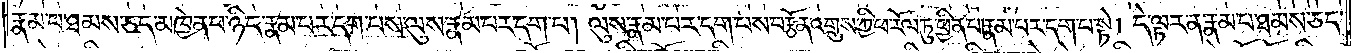རྣམ་པ་ཐམས་ཅད་མཁྱེན་པ་ཉིད་རྣམ་པར་དག་པས་ལུས་རྣམ་པར་དག་པ། ལུས་རྣམ་པར་དག་པས་བརྩོན་འགྲུས་ཀྱི་ཕ་རོལ་ཏུ་ཕྱིན་པ་རྣམ་པར་དག་པ་སྟེ། དེ་ལྟར་ན་རྣམ་པ་ཐམས་ཅད་
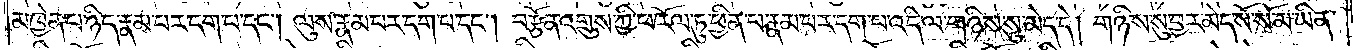མཁྱེན་པ་ཉིད་རྣམ་པར་དག་པ་དང༌། ལུས་རྣམ་པར་དག་པ་དང༌། བརྩོན་འགྲུས་ཀྱི་ཕ་རོལ་ཏུ་ཕྱིན་པ་རྣམ་པར་དག་པ་འདི་ལ་གཉིས་སུ་མེད་དེ། གཉིས་སུ་བྱར་མེད་སོ་སོ་མ་ཡིན་
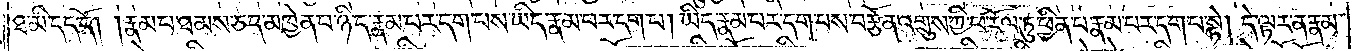ཐ་མི་དད་དོ། །རྣམ་པ་ཐམས་ཅད་མཁྱེན་པ་ཉིད་རྣམ་པར་དག་པས་ཡིད་རྣམ་པར་དག་པ། ཡིད་རྣམ་པར་དག་པས་བརྩོན་འགྲུས་ཀྱི་ཕ་རོལ་ཏུ་ཕྱིན་པ་རྣམ་པར་དག་པ་སྟེ། དེ་ལྟར་ན་རྣམ་
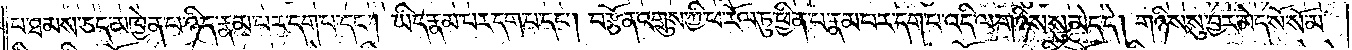པ་ཐམས་ཅད་མཁྱེན་པ་ཉིད་རྣམ་པར་དག་པ་དང༌། ཡིད་རྣམ་པར་དག་པ་དང༌། བརྩོན་འགྲུས་ཀྱི་ཕ་རོལ་ཏུ་ཕྱིན་པ་རྣམ་པར་དག་པ་འདི་ལ་གཉིས་སུ་མེད་དེ། གཉིས་སུ་བྱར་མེད་སོ་སོ་མ་
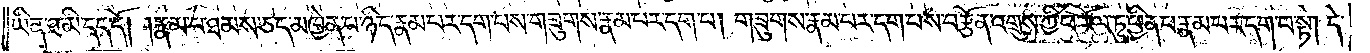ཡིན་ཐ་མི་དད་དོ། །རྣམ་པ་ཐམས་ཅད་མཁྱེན་པ་ཉིད་རྣམ་པར་དག་པས་གཟུགས་རྣམ་པར་དག་པ། གཟུགས་རྣམ་པར་དག་པས་བརྩོན་འགྲུས་ཀྱི་ཕ་རོལ་ཏུ་ཕྱིན་པ་རྣམ་པར་དག་པ་སྟེ། དེ་
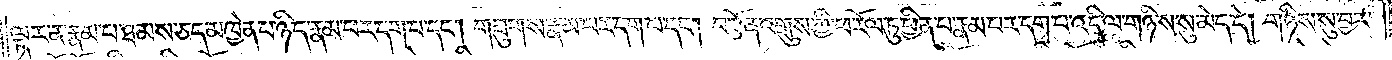ལྟར་ན་རྣམ་པ་ཐམས་ཅད་མཁྱེན་པ་ཉིད་རྣམ་པར་དག་པ་དང༌། གཟུགས་རྣམ་པར་དག་པ་དང༌། བརྩོན་འགྲུས་ཀྱི་ཕ་རོལ་ཏུ་ཕྱིན་པ་རྣམ་པར་དག་པ་འདི་ལ་གཉིས་སུ་མེད་དེ། གཉིས་སུ་བྱར་
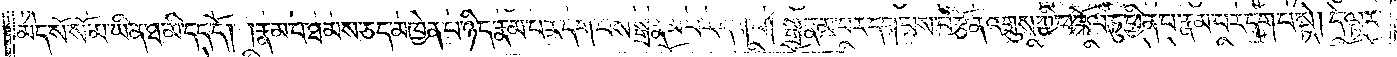མེད་སོ་སོ་མ་ཡིན་ཐ་མི་དད་དོ། །རྣམ་པ་ཐམས་ཅད་མཁྱེན་པ་ཉིད་རྣམ་པར་དག་པས་སྒྲ་རྣམ་པར་དག་པ། སྒྲ་རྣམ་པར་དག་པས་བརྩོན་འགྲུས་ཀྱི་ཕ་རོལ་ཏུ་ཕྱིན་པ་རྣམ་པར་དག་པ་སྟེ། དེ་ལྟར་
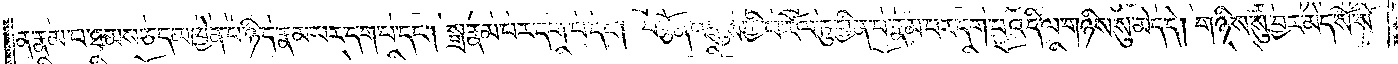ན་རྣམ་པ་ཐམས་ཅད་མཁྱེན་པ་ཉིད་རྣམ་པར་དག་པ་དང༌། སྒྲ་རྣམ་པར་དག་པ་དང༌། བརྩོན་འགྲུས་ཀྱི་ཕ་རོལ་ཏུ་ཕྱིན་པ་རྣམ་པར་དག་པ་འདི་ལ་གཉིས་སུ་མེད་དེ། གཉིས་སུ་བྱར་མེད་སོ་སོ་
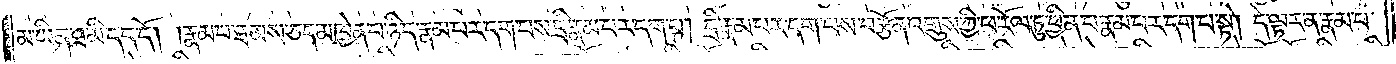མ་ཡིན་ཐ་མི་དད་དོ། །རྣམ་པ་ཐམས་ཅད་མཁྱེན་པ་ཉིད་རྣམ་པར་དག་པས་དྲི་རྣམ་པར་དག་པ། དྲི་རྣམ་པར་དག་པས་བརྩོན་འགྲུས་ཀྱི་ཕ་རོལ་ཏུ་ཕྱིན་པ་རྣམ་པར་དག་པ་སྟེ། དེ་ལྟར་ན་རྣམ་པ་
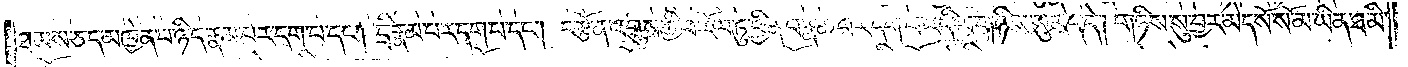ཐམས་ཅད་མཁྱེན་པ་ཉིད་རྣམ་པར་དག་པ་དང༌། དྲི་རྣམ་པར་དག་པ་དང༌། བརྩོན་འགྲུས་ཀྱི་ཕ་རོལ་ཏུ་ཕྱིན་པ་རྣམ་པར་དག་པ་འདི་ལ་གཉིས་སུ་མེད་དེ། གཉིས་སུ་བྱར་མེད་སོ་སོ་མ་ཡིན་ཐ་མི་
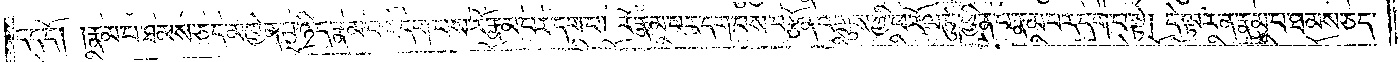དད་དོ། །རྣམ་པ་ཐམས་ཅད་མཁྱེན་པ་ཉིད་རྣམ་པར་དག་པས་རོ་རྣམ་པར་དག་པ། རོ་རྣམ་པར་དག་པས་བརྩོན་འགྲུས་ཀྱི་ཕ་རོལ་ཏུ་ཕྱིན་པ་རྣམ་པར་དག་པ་སྟེ། དེ་ལྟར་ན་རྣམ་པ་ཐམས་ཅད་
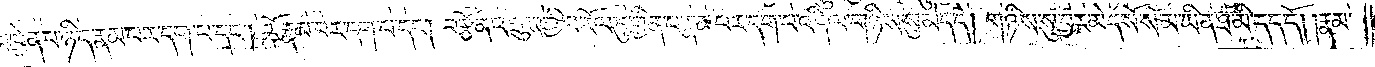མཁྱེན་པ་ཉིད་རྣམ་པར་དག་པ་དང༌། རོ་རྣམ་པར་དག་པ་དང༌། བརྩོན་འགྲུས་ཀྱི་ཕ་རོལ་ཏུ་ཕྱིན་པ་རྣམ་པར་དག་པ་འདི་ལ་གཉིས་སུ་མེད་དེ། གཉིས་སུ་བྱར་མེད་སོ་སོ་མ་ཡིན་ཐ་མི་དད་དོ། །རྣམ་
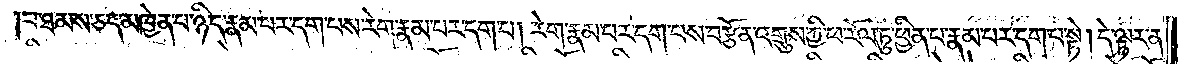པ་ཐམས་ཅད་མཁྱེན་པ་ཉིད་རྣམ་པར་དག་པས་རེག་རྣམ་པར་དག་པ། རེག་རྣམ་པར་དག་པས་བརྩོན་འགྲུས་ཀྱི་ཕ་རོལ་ཏུ་ཕྱིན་པ་རྣམ་པར་དག་པ་སྟེ། དེ་ལྟར་ན་
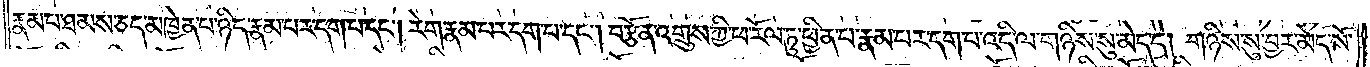རྣམ་པ་ཐམས་ཅད་མཁྱེན་པ་ཉིད་རྣམ་པར་དག་པ་དང༌། རེག་རྣམ་པར་དག་པ་དང༌། བརྩོན་འགྲུས་ཀྱི་ཕ་རོལ་ཏུ་ཕྱིན་པ་རྣམ་པར་དག་པ་འདི་ལ་གཉིས་སུ་མེད་དེ། གཉིས་སུ་བྱར་མེད་སོ་
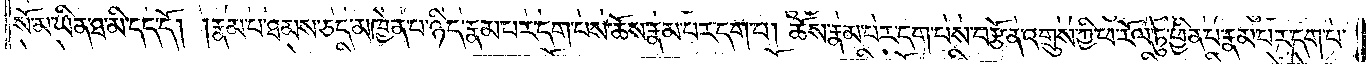སོ་མ་ཡིན་ཐ་མི་དད་དོ། །རྣམ་པ་ཐམས་ཅད་མཁྱེན་པ་ཉིད་རྣམ་པར་དག་པས་ཆོས་རྣམ་པར་དག་པ། ཆོས་རྣམ་པར་དག་པས་བརྩོན་འགྲུས་ཀྱི་ཕ་རོལ་ཏུ་ཕྱིན་པ་རྣམ་པར་དག་པ་
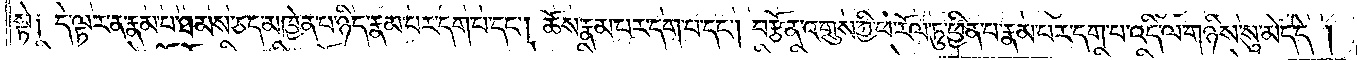སྟེ༑ དེ་ལྟར་ན་རྣམ་པ་ཐམས་ཅད་མཁྱེན་པ་ཉིད་རྣམ་པར་དག་པ་དང༌། ཆོས་རྣམ་པར་དག་པ་དང༌། བརྩོན་འགྲུས་ཀྱི་ཕ་རོལ་ཏུ་ཕྱིན་པ་རྣམ་པར་དག་པ་འདི་ལ་གཉིས་སུ་མེད་དེ།
